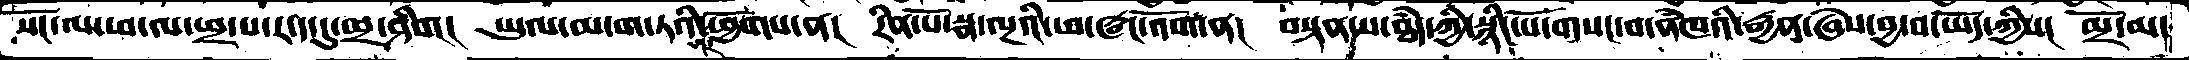སོང་ལ་ཕ་ལ་ཕྲ་བ་ར་ད་དུ་ཕྲ་ཤིག།  ཡུལ་མ་ག་ཏའི་ཤར་ཕྱོགས་ན།  རིན་པོ་སྣ་ལྔའི་ཕ་ཝང་འོག་ན།  བསྟན་པ་ཐཾད་ཀྱི་སྙིང་པོ་གསང་བ་ནཾཁའི་རྒྱན་ཞེས་བྱ་བ་ཡོད་ཀྱིས།  མྲོ་མ་
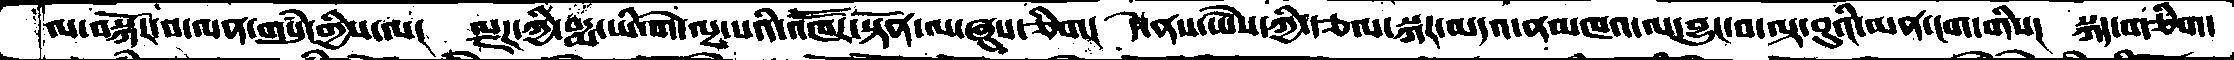ལ་བསྐོར་བ་ལན་གསུཾ་གྱིས་ལ།  ལྗཌ་ཀྱི་པདྨ་ཡི་གེ་ལྔ་པའི་འཁཽར་སྟོན་ལ་ཞུས་ཅིག།  དེ་ནས་ཡཻས་ཀྱིརྩལ་སྐར་མདའ་ནམཁའ་ལ་བྱུང་བ་ལྟ་བུའི་མན་ངག་གིས།  སྐད་གཅིག་
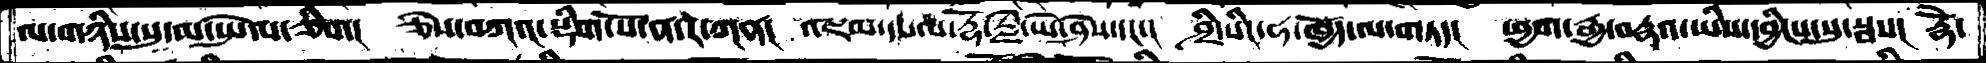ལ་གཉིས་སུ་མ་སྤེལ་ཅིག།  ཅེས་བཀའ་སྡིག་པོ་ན་ར་ཀན།  འཇམ་དཔལ་རྡོ་རྗེ་ཡེ་ཤེས་དང་།  ཤྲི་སིང་ཧ་ཁྱོད་ལ་གཏད།  ཕྱག་རྒྱ་བརྡའ་ཡིས་དབྱིངས་སུ་སྦས།  རྡོེ་
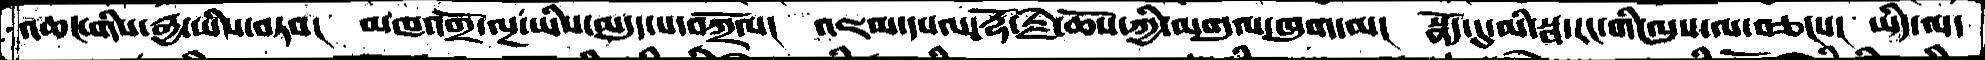འཆང་གིས་རྒྱ་ཡིས་བཏབ།  མཁའགྲོ་ལྔ་ཡིས་མདུད་པ་བཀྲོལ།  འཇམ་དཔལ་རྡོ་རྗེ་ཆོས་ཀྱི་མགུལ་ཁུག་མ།  སྣོད་དུ་མི་སྦ་རང་གི་ལུས་ལ་བཅངས།  ཡིད་ལ་
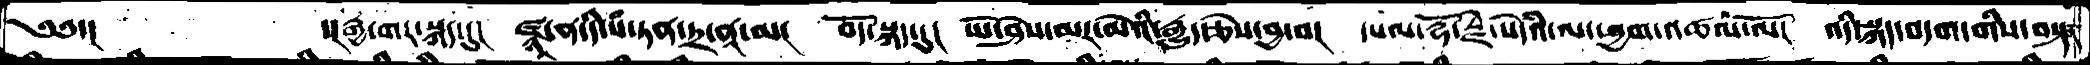༄༅་།     ་།རྒྱ་གར་སྐད་དུ།   ཛྙཱ་ན་དི་པཾ་ཏན་ཏྲ་ནཱ་མ།  བོད་སྐད་དུ།  ཡེ་ཤེས་མར་མེའི་རྒྱུད་ཅེས་བྱ་བ།  དཔལ་རྡོ་རྗེ་སེདའཾ་ལ་ཕྱག་འཚལ་ལོ།  འདི་སྐད་བདག་གིས་བསྟན
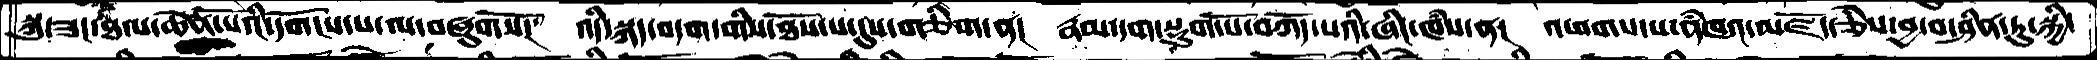སྐུ་ཟང་ཐལ་ཆེན་པོའི་དགོངས་པ་ལ་བཞུགསོ་།  འདི་སྐད་བདག་གིས་ཐོས་པ་དུས་གཅིག་ན།  རྣམ་དག་སྡུག་པོ་བཀོད་པའི་ཞིང་ཁཾས་ན།  འཕགས་པ་ནཾཁའ་མཛོད་ཅེས་བྱ་བ་ཤིན་ཏུ་སྐྱི་
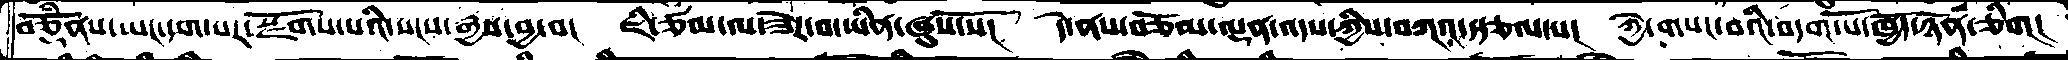བཅྡོཾནས་ཡང་དག་པར་སྫོགས་པའི་སངས་རྒྱས་བྱ་བ།  ཇི་ཙམ་ལ་ཟེར་བ་ཡིན་ཞུས་སོ།  དེ་ནས་མཅོམ་ལྡན་འདས་ཀྱིས་བཀའ་སྩལ་པ།  ཀྱེ་གསང་བའི་བདག་པོ་ཁྱོད་ཉོན་ཅིག།
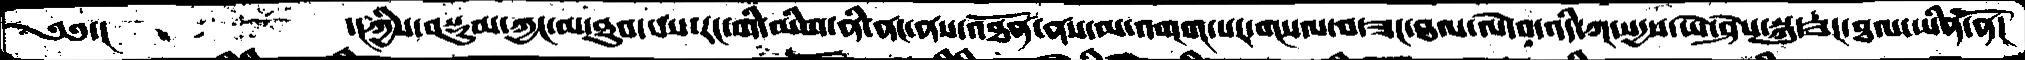༄༅་།          ་།ཀྱིས་བསྡུམ་ཀྱང་མ་ཐུབ་པས་རང་གི་མིག་ནི་ནང་ནས་འཐོན་ནས་མ་འགག་པར་གསལ་བ་ཟང་ཐལ་ལེ་བ་འདི་ཀ་སདྱས་ཡེ་ཤེས་སྐུ་ཟང་ཐལ་ཡིན་ནོ།
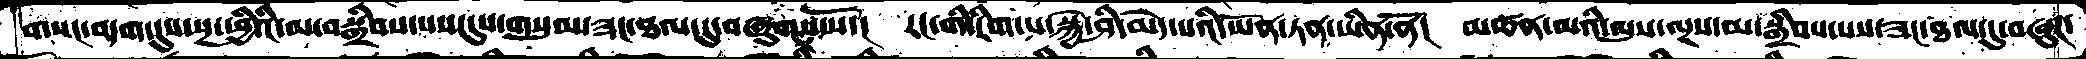གསང་བདག་དུས་སྔ་ཕྱིའི་མ་བསྒྲིབས་པས་དུས་གསུམ་ཟང་ཐལ་དུ་བཞུགས་སོ་།  རང་གི་རིག་པ་སྐྱེ་ཤི་མེད་པའི་ཡོན་ཏན་ཡིན་ནོ།  མཚན་མའི་ལུས་ལྔས་མ་སྒྲིབས་པས་ཟང་ཐལ་དུ་བཞུཌ་
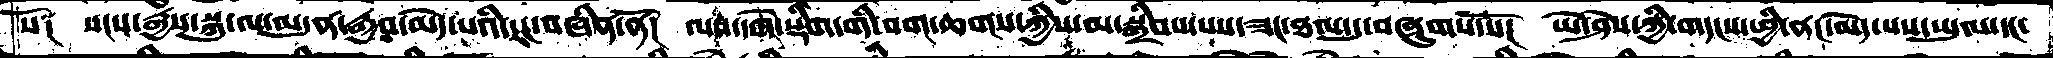སོ༑  སངས་རྒྱས་སྐུ་ལ་མདུན་རྒྱབ་མེད་པའི་རང་བཞིན་ནོ།  ལས་དགེ་སྡིག་གི་བག་ཆགས་ཀྱིས་མ་སྒྲིབས་པས་ཟང་ཐལ་དུ་བཞུགས་སོ།  ཡེ་ཤེས་ཀྱི་གདངས་ཕྱི་ནང་མེད་པས་ཡུལ་དང་
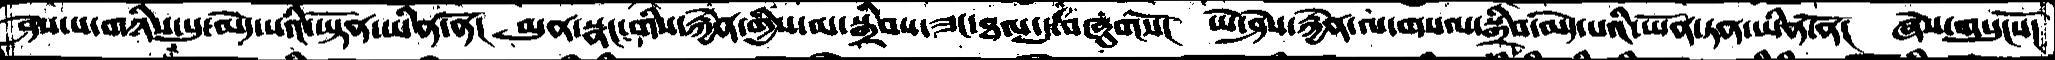ཤེས་པ་གཉིས་སུ་མེད་པའི་ཡྟོན་ཡིན་ནོ།  མུན་སྣང་གིས་རྐྱེན་གྱིས་མ་སྒྲིབས་ཟང་ཐལ་དུ་བཞུགསོ།  ཡེ་ཤེས་རྐྱེན་ལ་གསལ་སྒྲིབ་མེད་པའི་ཡོན་ཏན་ཡིན་ནོ།  ཞེས་གསུངསོ།
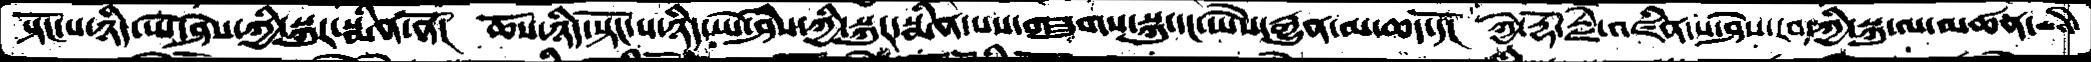སྟོང་པ་ཉིད་ཡེ་ཤེས་ཀྱི་སྐུར་སྨིན་ནོ།  ཆོས་ཉིད་སྟོང་པ་ཉིད་ཡེ་ཤེས་ཀྱི་སྐུར་སྨིན་པས་གཟུགས་སྐུ་དང་ཡཻས་རྒྱུན་མ་ཆད་དོ།  ཀྱེ་རྡོ་རྗེ་འཛིན་པ་ཤེས་རབ་ཀྱི་སྐུ་ལ་མཚོན་མའི་
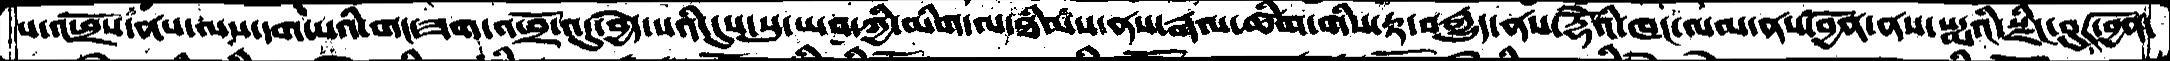པ་འཕྲོས་ནས་ལས་དག་པའི་གང་ཟག་འཕྲོ་འདུ་བྱེད་པའི་དུས་སུ་ཡབ་ཀྱི་མིག་ལ་ཐིམས་ནས་རྒལ་ཚིག་གིས་རྟ་བརྒྱུད་ནས་རྡོེའི་ཁང་ལམ་ནས་བྱོན་ནས་པདྨའི་སྫིང་བུར་བྱོན་
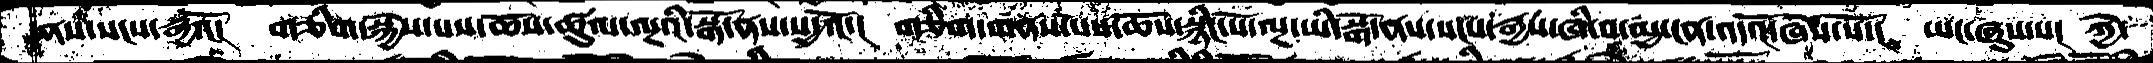ནས་སངས་རྒྱའོ།  གཅིག་སྐྱེས་པས་ཆོས་ཚུལ་ལྔའི་སྒོ་ནས་སདྱའོ་།  གཅིག་གནས་པས་ཆོས་སྙིང་པོ་ལྔ་ཡི་སྒོ་ནས་སངས་རྒྱས་ཞི་བ་མྱ་ངན་འདའོ་ཞེས་སོ་།  ཡང་ཞུས་པ།  ཀྱེ་
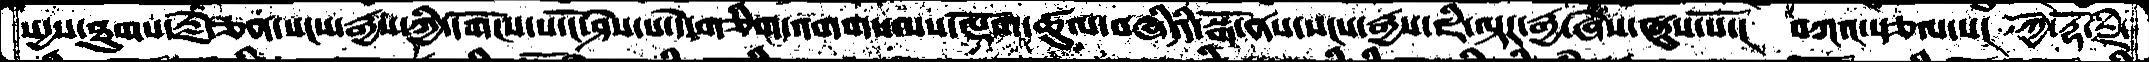སདྱས་ཐུགས་རྗེ་ཅན་སདྱས་ཀྱི་དགོངས་པ་ངོ་ཤེས་པ་དེ་གཅིག་འགགས་ལས་ལྡོག་ཚུལ་བཞིའི་སྒོ་ནས་སངས་རྒྱས་ཇི་ལྟར་རྒྱ་ཞེས་ཞུས་སོ་།  བཀའ་སྩལ་པ།  ཀྱེ་རྡོ་རྗེ་
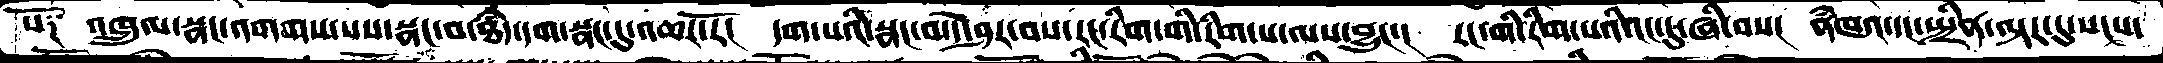པོ༑  འཁྲུལ་སྣང་འགགས་པས་སྣང་བ་ཐདཾ་དག་སྣང་དུ་འཆར་རོ།  དག་པའི་སྣང་བ་དེ་ཤར་བས་རང་རིག་གི་རིག་པ་ལས་བྱུང་།  རང་གི་རིག་པའི་ངང་དུ་ཞི་བས།  ནཾཁའ་དང་སྤྲིན་ལྟར་དུ་སངས་
